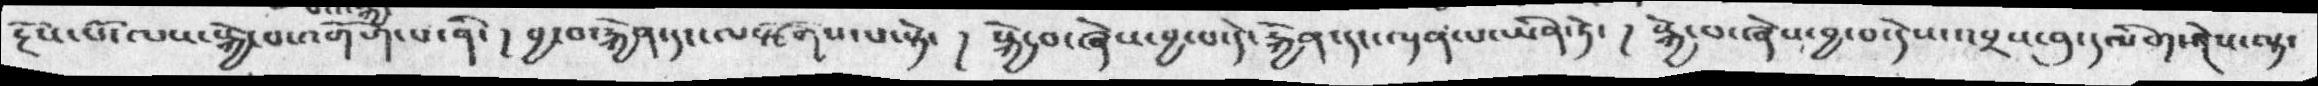རྔོས་པོ་ལས་སྐྱེ་བ་འགོག་པ་ནི་།  བྱ་བ་རྐྱེན་དང་ལསྩོགས་པ་སྟེ་ །  སྐྱེ་བ་ཞེས་བྱ་པ་དེ་རྐྱེན་དང་ལྡན་པ་ཡིན་ཏེ་།  སྐྱེ་བ་ཞེས་བྱ་བ་དེས་འབྲས་བུ་དམིགས་ཤེས་ལྟ་
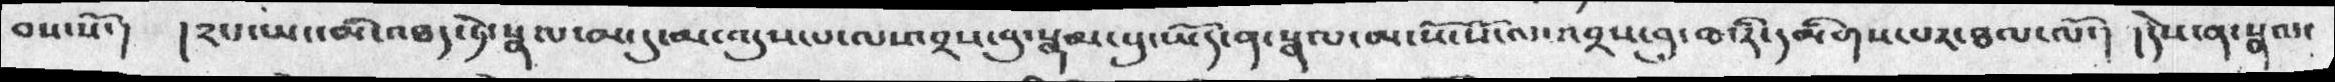བས་སོ་། །༢པ་ཡང་མི་འཐད་ཏེ་སྣལ་མ་དུ་མ་འདུས་པ་ལས་འབྲས་བུ་སྣམ་པུ་ཡོད་ན་སྣལ་མ་སོ་སོ་ལ་འབྲས་བུ་ཆ་རི་དམིགས་པར་ཐལ་ལོ་། །དེས་ན་སྣལ་
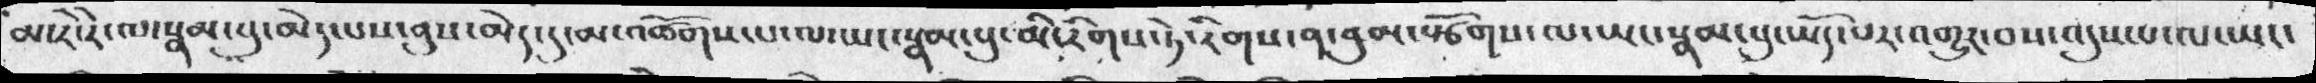མ་རེ་རེ་ལ་སྣམ་པུ་མེད་པས་ནུས་མེད་དུ་མ་འཚོགས་པ་ལ་ཡང་སྣམ་པུ་མི་རིགས་ཏེ་རིགས་ན་བུམ་སྩོགས་ལ་ཡང་སྣམ་པུ་ཡོད་པར་འགྱུར་བས་འདུས་པ་ལ་ཡང་
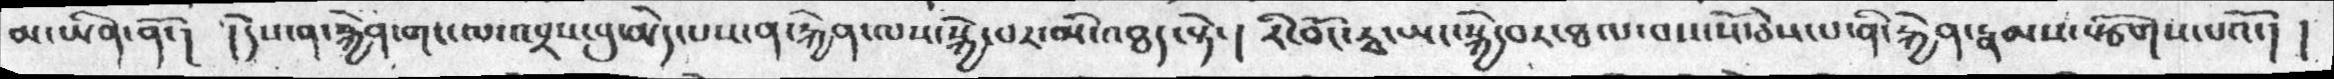མ་ཡིན་ནོ་། །དེས་ན་རྐྱེན་གང་ལ་འབྲས་བུ་མེད་པས་ན་རྐྱེན་ལས་སྐྱེ་བར་མི་འཐད་སྟེ་།  རི་བོང་རྭ་ཡང་སྐྱེ་བར་ཐལ་བས་སོ་ཅེས་པ་ནི་རྐྱེན་རྣམས་སྩོགས་པའོ་། །
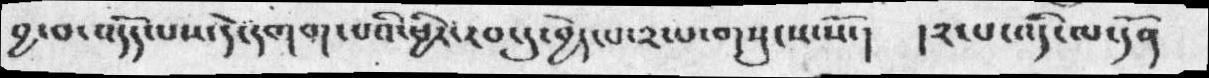བྱ་བ་འདོད་པས་དེ་དགག་པའི་ཕྱིར་རབ་དུ་བྱེད་པ་༢་པ་གསུངས་སོ་།  །༢་པ་འདི་ལ་དོན
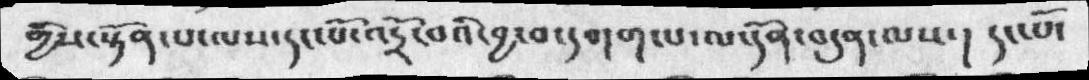གྱིས་སྟོན་པ་ལས་དང་པོ་འདྲོ་བའི་བྱ་བ་དགག་པ་ལ་དོན་བདུན་ལས་། དང་པོ་
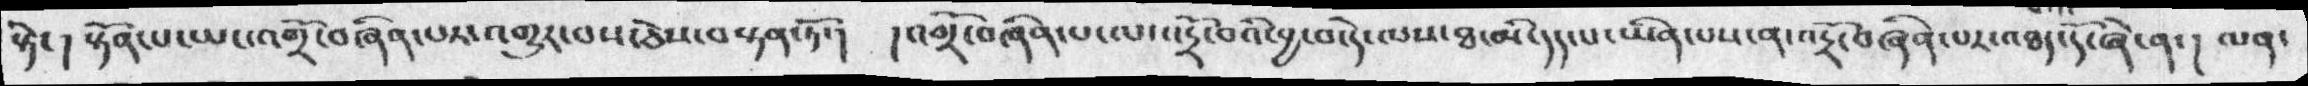སྟེ་། སྟོན་པ་ཡང་འགྲོ་བཞིན་པར་འགྱུར་བས་ཅེས་བསྟན་ཏོ་།  །འགྲོ་བཞིན་པ་ལ་འདྲོ་བའི་བྱ་བ་དེ་ལས་ཐ་མི་དད་པ་ཡིན་པས་ན་འདྲོ་བཞིན་པར་འཐད་དོ་ཞེ་ན་། ལན་
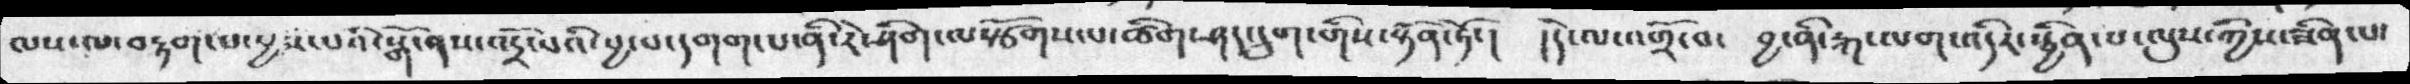ལས་ལ་བརྟག་པ་བྱས་པའི་སྒོ་ནས་འདྲོ་བའི་བྱ་བ་དགག་པ་ནི་རེ་ཤིག་ལསྩོགས་པ་ཚིག་ཤད་དྲུག་གིས་སྟོན་ཏོ་།  །དེ་ལ་འགྲོ་བ་  བྱ་ནི་རྐ་ལག་འདིར་སྦྱིན་པ་ལུས་ཀྱིས་ཟིན་པ་
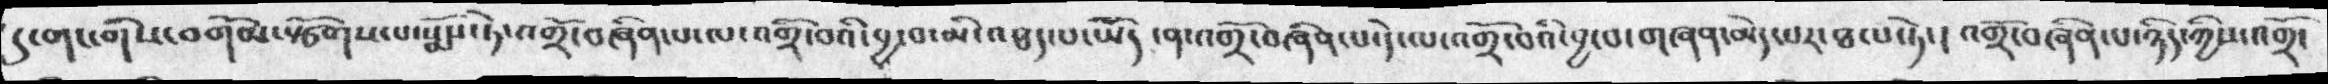དུ་གང་གིས་བགོམ་སྩོགས་པ་སྨོས་ཏེ་འགྲོ་བཞིན་པ་ལ་འགྲོ་བའི་བྱ་བ་མི་འཐད་པ་ཡོད་ན་འགྲོ་བཞིན་པ་དེ་ལ་འགྲོ་བཞིན་པ་དེ་ལ་འགྲོ་བའི་བྱ་བ་གཞན་མེད་པར་ཐལ་ཏེ་། འགྲོ་བཞིན་པ་ཉིད་ཀྱིས་འགྲོ་
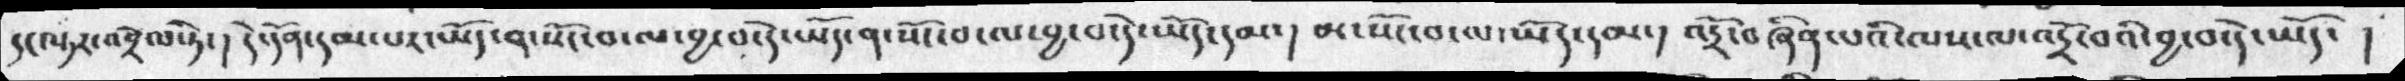ད་ལྟར་འབྲེལ་ཏེ་། དེ་དོན་དམ་པར་ཡོད་ན་སོང་བ་ལ་བྱ་བ་དེ་ཡོད་ན་སོང་བ་ལ་བྱ་བ་དེ་ཡོད་དམ་། མ་སོང་བ་ལ་ཡོད་དམ་། འདྲོ་བཞིན་པའི་ལས་ལ་འདྲོ་བའི་བྱ་བ་དེ་ཡོད་།
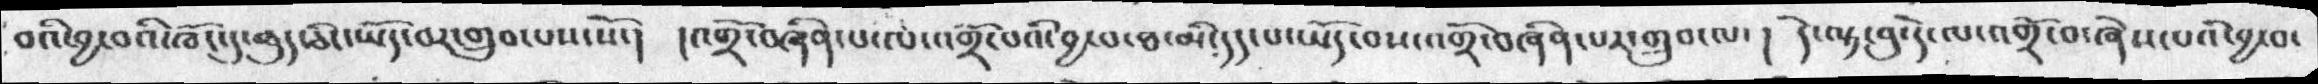བའི་བྱ་བའི་ཁོང་དུ་ཆུད་ཅིང་ཡོད་བར་གྲུབ་པས་སོ་།  །འགྲོ་བཞིན་པ་ལ་འགྲོ་བའི་བྱ་བ་ཐ་མི་དད་པ་ཡོད་བས་འགྲོ་བཞིན་པར་གྲུབ་ལ་།  དེ་ལྟ་བུ་དེ་ལ་འགྲོ་བ་ཞེས་པི་བྱ་བ་
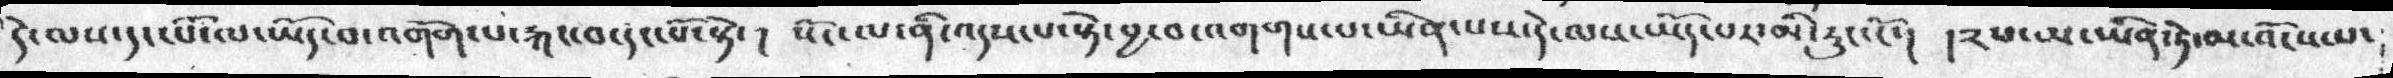དེ་ལས་དང་པོ་ལ་ཡོད་པ་འགོག་པ་རྐང་བ་དང་པོ་སྟེ་།  སོང་ལ་ནི་འདས་པ་སྟེ་བྱ་བ་འགགས་པ་ཡིན་པས་དེ་ལས་ཡོད་པར་མི་རུང་ངོ་། །༢པ་ཡང་ཡིན་ཏེ་མ་འོངས་པ་
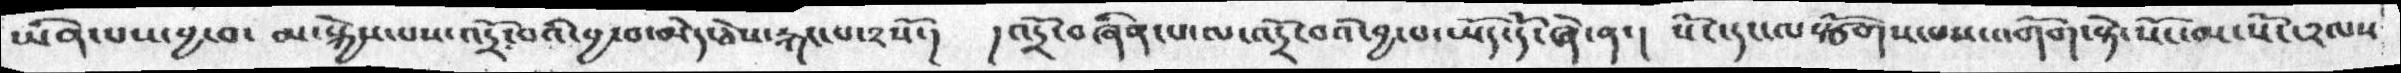ཡིན་པས་བྱ་བ་ མ་སྐྱེས་པས་འདྲོ་བའི་བྱ་བ་མེད་ཅེས་རྐང་པ་༢སོ་། །འདྲོ་བཞིན་པ་ལ་འདྲོ་བའི་བྱ་བ་ཡོད་དོ་ཞེ་ན་།  སོང་དང་ལསྩོགས་པས་འགོག་སྟེ་སོང་མ་སོང་༢ལས
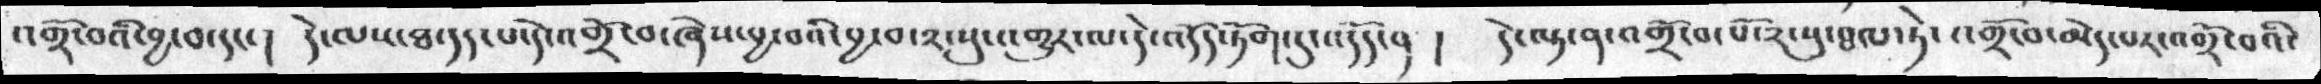འགྲོ་བའི་བྱ་བ་དང་།  དེ་ལས་ཐ་དད་པ་དེ་འགྲོ་བ་ཞེས་བྱ་བའི་བྱ་བ་༢་སུ་འགྱུར་ལ་དེ་འདོད་ཏོག་དུ་འདོད་ན ། དེ་ལྟ་ན་འགྲོ་བ་པོ་༢་སུ་ཐལ་ཏེ་འགྲོ་བ་མེད་པར་འགྲོ་བའི་
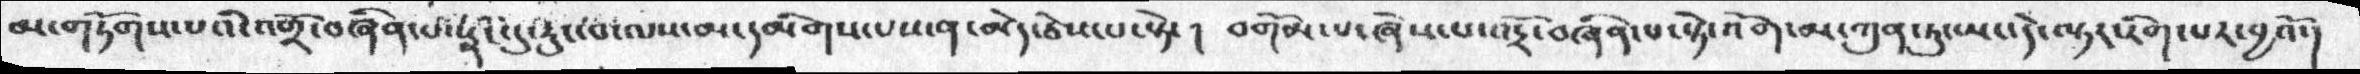མ་གཏོགས་པའི་འགྲོ་བཞིན་པ་སྣང་དུ་རུང་བ་ལས་མ་དམིགས་པས་ན་མེད་ཅེས་པ་སྟེ་།  བགོམ་པ་ཞེས་པ་འདྲོ་བཞིན་པ་སྟེ་འོག་མ་ཀུན་ཏུ་ཡང་དེ་ལྟར་རིག་པར་བྱའོ་།
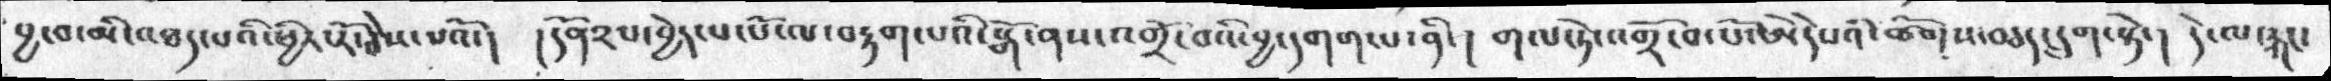བྱ་བ་མི་འཐད་པའི་ཕྱིར་རོ་ཅེས་པའོ་། །དོན༢པ་བྱེད་པ་པོ་ལ་བརྟག་པའི་སྒོ་ནས་འགྲོ་བའི་བྱ་དགག་པ་ནི་། གལ་ཏེ་འགྲོ་བ་པོ་ཨེདེཔའི་ཚོགས་བཅད་དྲུག་སྟེ་། དེ་ལ་རྐང་
